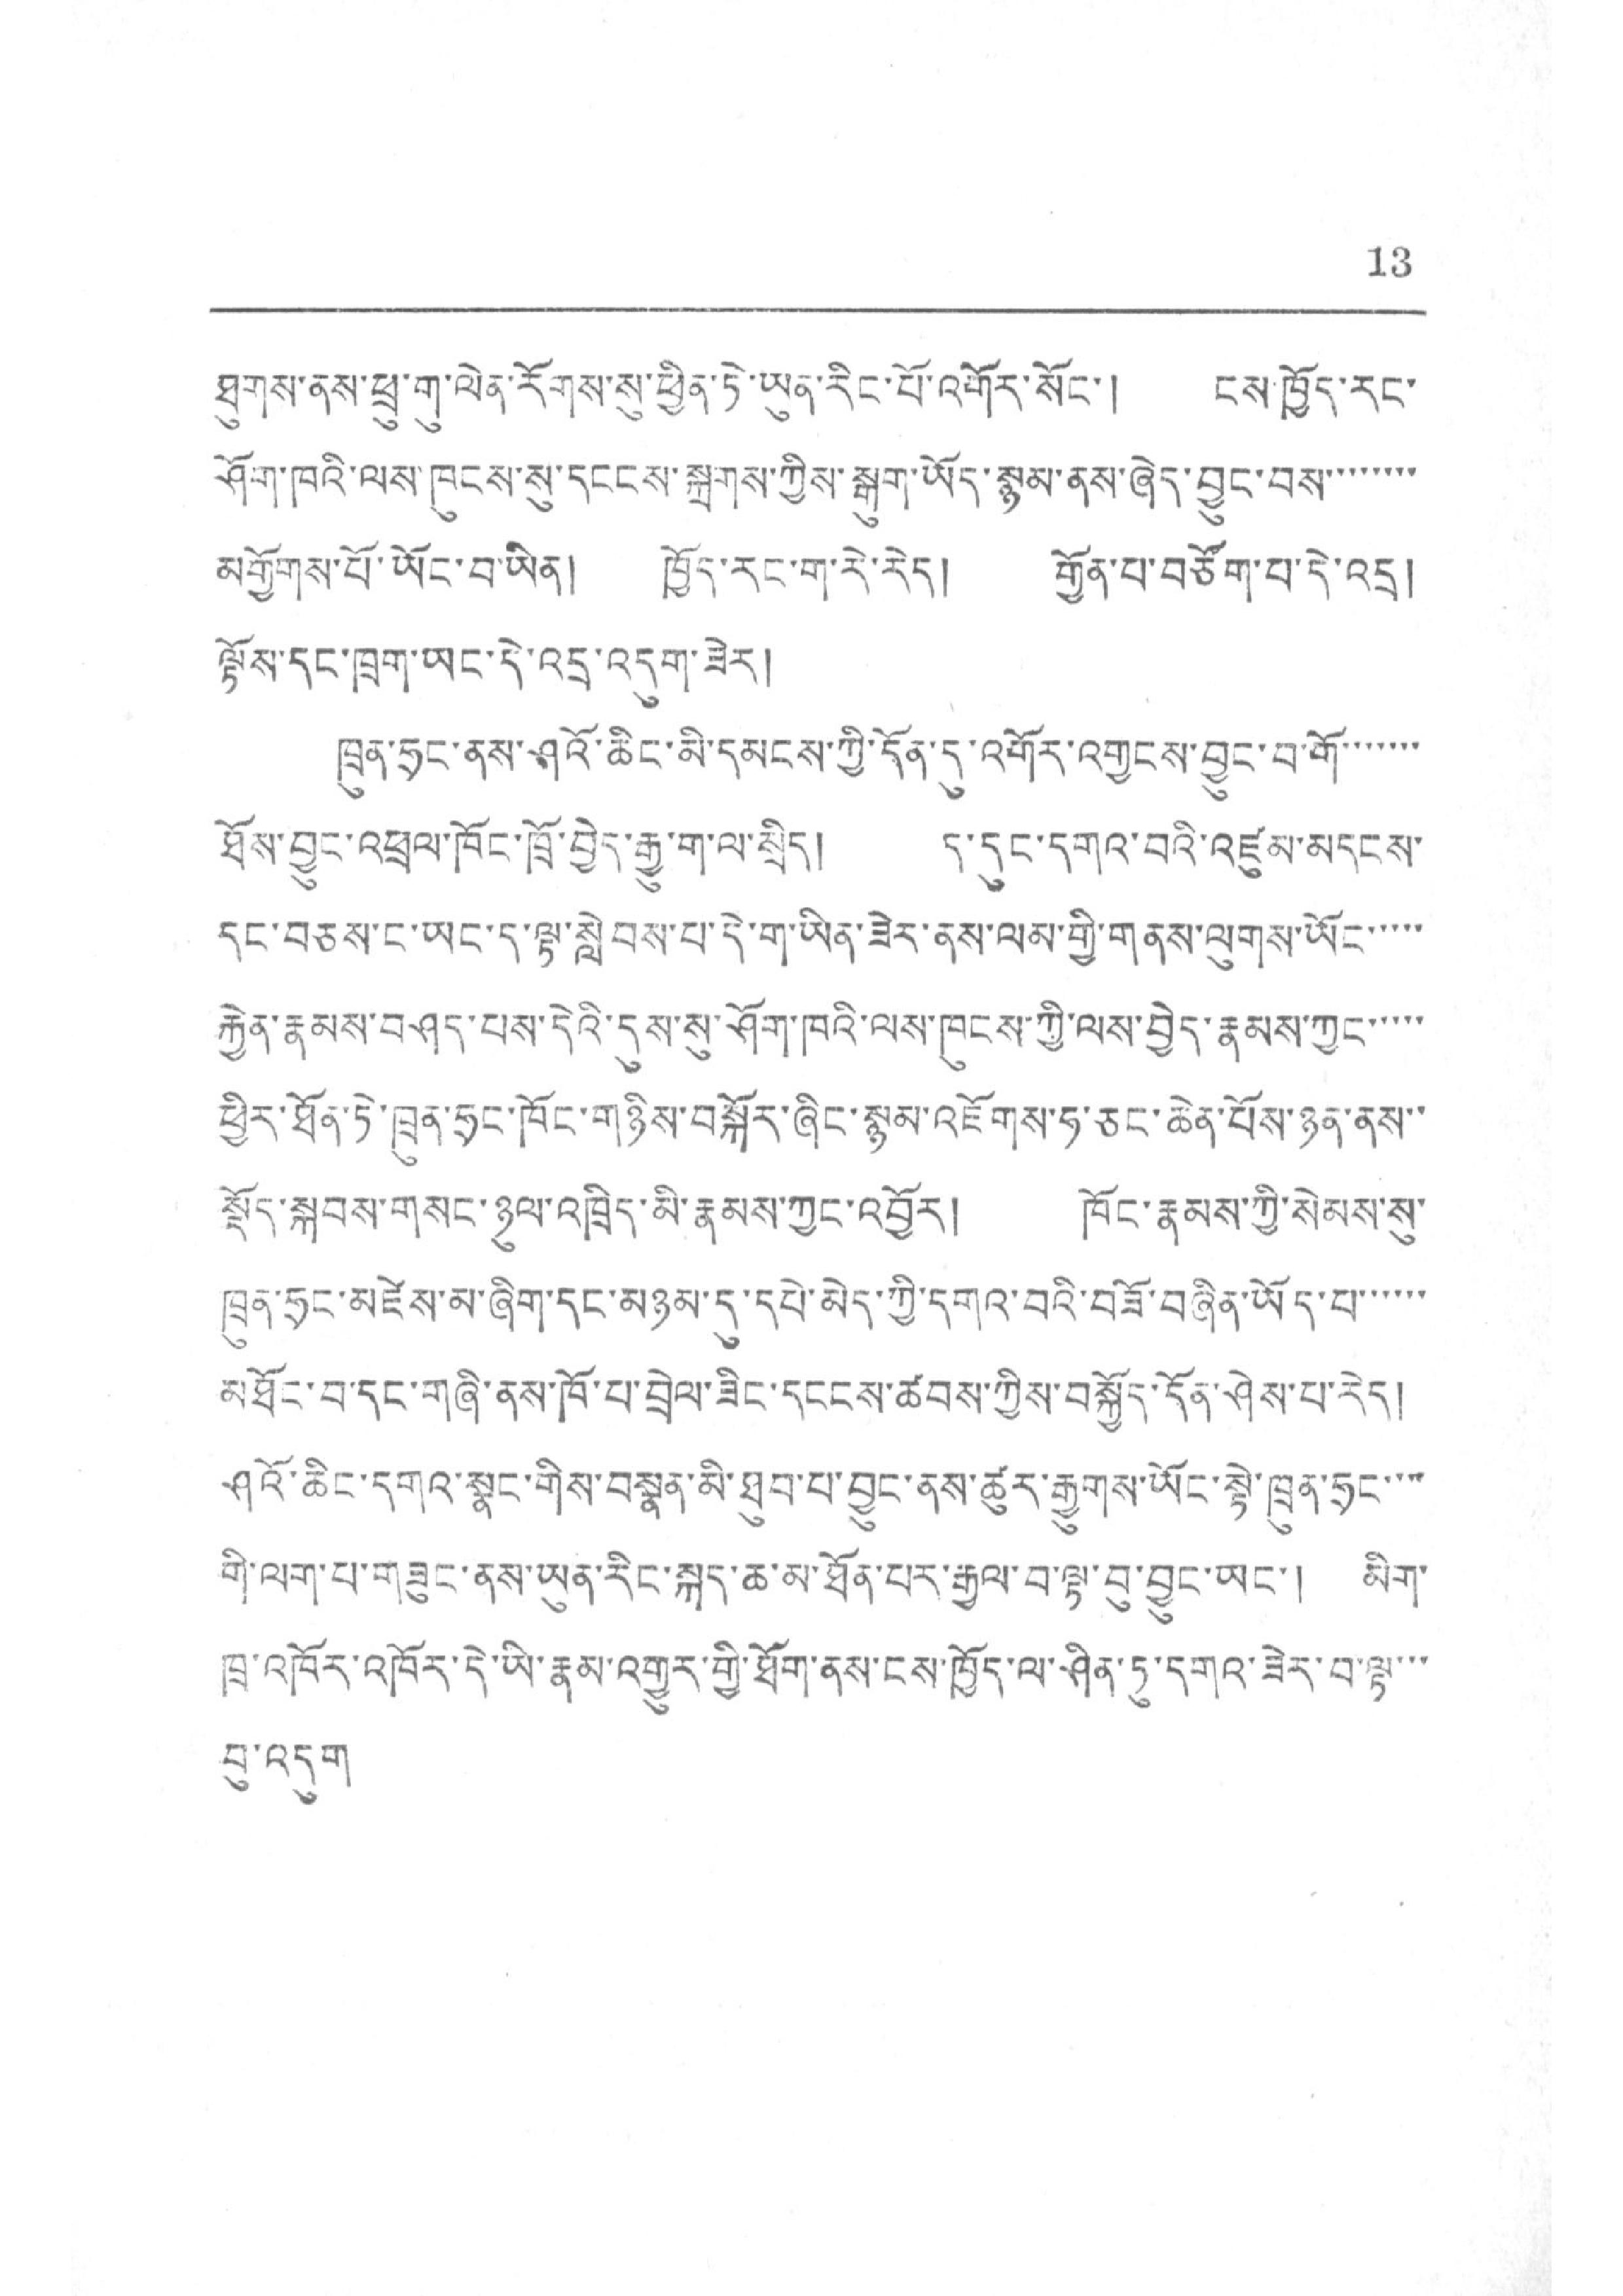13
ཐུགས་ནས་ཕྲུ་གུ་ལེན་རོགས་སུ་ཕྱིན་ཏེ་ཡུན་རིང་པོ་འགོར་སོང་། ངས་ཁྱོད་རང་
ཤོག་ཁའི་ལས་ཁུངས་སུ་དངངས་སྐྲགས་ཀྱིས་སྒུག་ཡོད་སྙམ་ནས་ཞེད་བྱུང་བྱས་་་་་་་་
མགྱོགས་པོ་ཡོང་བ་ཡིན། ཁྱོར་རང་ག་རེ་རེད། གྱོན་པ་བཙོག་པ་དེ་འདྲ།
ལྟོས་དང་ཁྲག་ཡང་དེ་འདྲ་འདུག་ཟེར།
ཁྲུན་ཧྲང་ནས་ཤའོ་ཆིང་མི་དམངས་ཀྱི་དོན་དུ་འགོར་འགྱངས་བྱུང་བ་གོ་་་་་་་
ཐོས་བྱུང་འཕྲལ་ཁོང་ཁྲོ་བྱེད་རྒྱུ་ག་ལ་སྲིད། ད་དུང་དགའ་བའི་འཛུམ་མདངས་
དང་བཅས་ང་ཡང་ད་ལྟ་སླེབས་པ་དེ་ག་ཡིན་ཟེར་ནས་ལམ་གྱི་གནས་ལུགས་ཡོང་་་་་
རྐྱེན་རྣམས་བཤད་པས་དེའི་དུས་སུ་ཤོག་ཁའི་ལས་ཁུངས་ཀྱི་ལས་བྱེད་རྣམས་ཀྱང་་་་་
ཕྱིར་ཐོན་ཏེ་ཁྲུན་ཧྲང་ཁོང་གཉིས་བསྐོར་ཞིང་སྙམ་འཛོགས་ཧ་ཅང་ཆེན་པོས་ཉན་ནས་་
སྡོད་སྐབས་གསང་ཉུལ་འཁྲིད་མི་རྣམས་ཀྱང་འབྱོར། ཁོང་རྣམས་ཀྱི་སེམས་སུ་
ཁྲུན་ཧྲང་མཛེས་མ་ཞིག་དང་མཉམ་དུ་དཔེ་མེད་ཀྱི་དགའ་བའི་བཟོ་བཞིན་ཡོད་པ་་་་་་
མཐོང་བ་དང་གཞི་ནས་ཁོ་པ་བྲེལ་ཟིང་དངངས་ཚབས་ཀྱིས་བསྐྱོད་དོན་ཤེས་པ་རེད།
ཤའོ་ཆིང་དགའ་སྣང་གིས་བསྣན་མི་ཐུབ་པ་བྱུང་ནས་ཚུར་རྒྱུགས་ཡོང་སྟེ་ཁྲུན་ཧྲང་་་་
གི་ལག་པ་གཟུང་ནས་ཡུན་རིང་སྐད་ཆ་མ་ཐོན་པར་རྒྱལ་བ་ལྟ་བུ་བྱུང་ཡང་། མིག་
ཁྲ་འཁོར་འཁོར་དེ་ཡི་རྣམ་འགྱུར་གྱི་ཐོག་ནས་ངས་ཁྱོད་ལ་ཤིན་ཏུ་དགའ་ཟེར་བ་ལྟ་་་་་
བ་འདུག
